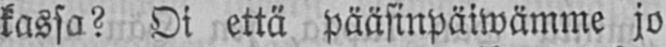kassa? Oi että pääsinpäiwämme jo
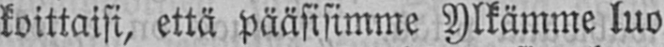koittaisi, että pääsisimme Ylkämme luo
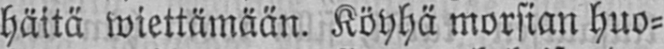häitä wiettämään. Köyhä morsian huo-
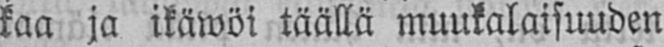kaa ja ikäwöi täällä muukalaisuuden
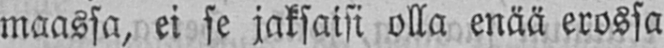maassa, ei se jaksaisi olla enää erossa
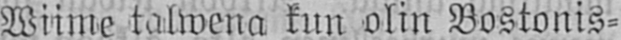Wiime talwena kun olin Bostonis-
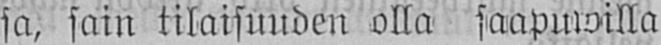sa, sain tilaisuuden olla saapuwilla
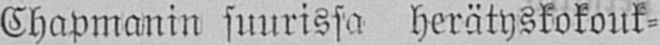Chapmanin suurissa herätyskokouk-
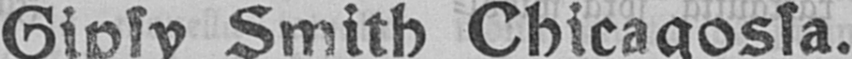Gipsy Smith Chicagossa.
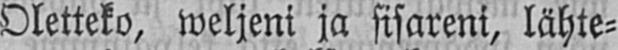Oletteko, weljeni ja sisareni, lähte-
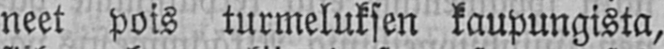neet pois turmeluksen kaupungista,
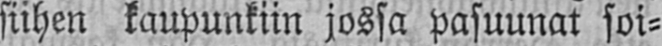siihen kaupunkiin jossa pasuunat soi-
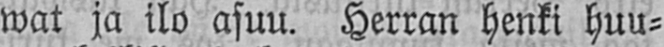wat ja ilo asuu. Herran henki huu-
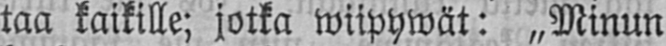taa kaikille; jotka wiipywät: „Minun
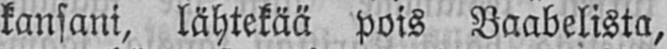kansani, lähtekää pois Baabelista,
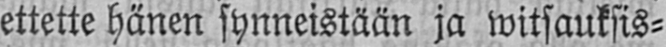ettette hänen synneistään ja witsauksis-
